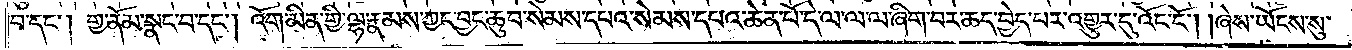བ་དང༌། གྱ་ནོམ་སྣང་བ་དང༌། འོག་མིན་གྱི་ལྷ་རྣམས་ཀྱང་བྱང་ཆུབ་སེམས་དཔའ་སེམས་དཔའ་ཆེན་པོ་དེ་ལ་ལ་ལ་ཞིག་བར་ཆད་བྱེད་པར་འགྱུར་དུ་འོང་ངོ༌། །ཞེས་ཡོངས་སུ་
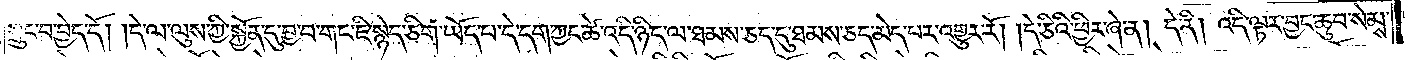སྲུང་བ་བྱེད་དོ། །དེ་ལ་ལུས་ཀྱི་སྐྱོན་དུ་བྱ་བ་གང་ཇི་སྙེད་ཅིག་ཡོད་པ་དེ་དག་ཀྱང་ཚེ་འདི་ཉིད་ལ་ཐམས་ཅད་དུ་ཐམས་ཅད་མེད་པར་འགྱུར་རོ། །དེ་ཅིའི་ཕྱིར་ཞེ་ན། དེ་ནི། འདི་ལྟར་བྱང་ཆུབ་སེམས་
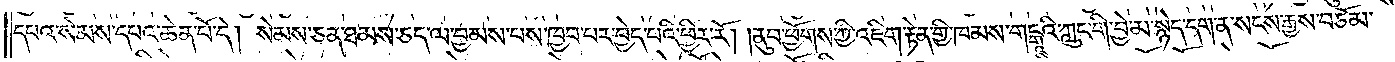དཔའ་སེམས་དཔའ་ཆེན་པོ་དེ། སེམས་ཅན་ཐམས་ཅད་ལ་བྱམས་པས་ཁྱབ་པར་བྱེད་པའི་ཕྱིར་རོ། །ནུབ་ཕྱོགས་ཀྱི་འཇིག་རྟེན་གྱི་ཁམས་གངྒཱའི་ཀླུང་གི་བྱེ་མ་སྙེད་དག་ན་སངས་རྒྱས་བཅོམ་
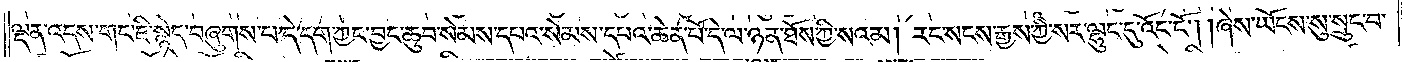ལྡན་འདས་གང་ཇི་སྙེད་བཞུགས་པ་དེ་དག་ཀྱང་བྱང་ཆུབ་སེམས་དཔའ་སེམས་དཔའ་ཆེན་པོ་དེ་ལ་ཉན་ཐོས་ཀྱི་སའམ། རང་སངས་རྒྱས་ཀྱི་སར་ལྷུང་དུ་འོང་ངོ༌། །ཞེས་ཡོངས་སུ་སྲུང་བ་
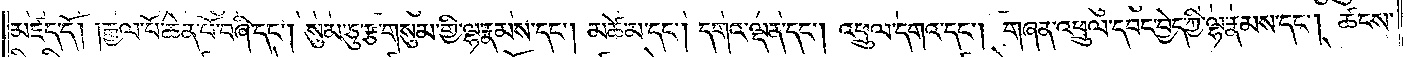མཛད་དོ། །རྒྱལ་པོ་ཆེན་པོ་བཞི་དང༌། སུམ་ཅུ་རྩ་གསུམ་གྱི་ལྷ་རྣམས་དང༌། མཚེ་མ་དང༌། དགའ་ལྡན་དང༌། འཕྲུལ་དགའ་དང༌། གཞན་འཕྲུལ་དབང་བྱེད་ཀྱི་ལྷ་རྣམས་དང༌། ཚངས་
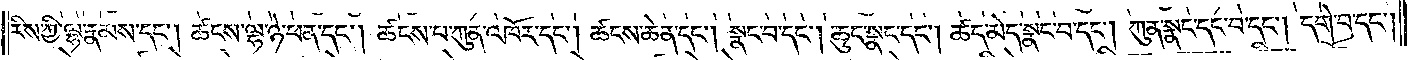རིས་ཀྱི་ལྷ་རྣམས་དང༌། ཚངས་ལྷ་ཉེ་ཕན་དང༌། ཚངས་པ་ཀུན་འཁོར་དང༌། ཚངས་ཆེན་དང༌། སྣང་བ་དང༌། ཆུང་སྣང་དང༌། ཚད་མེད་སྣང་བ་དང༌། ཀུན་སྣང་དང་བ་དང༌། དགེ་བ་དང༌།
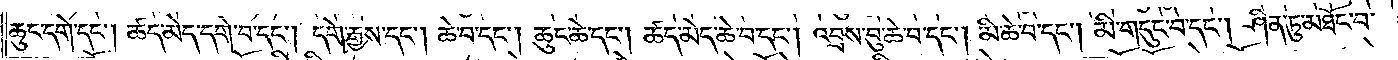ཆུང་དགེ་དང༌། ཚད་མེད་དགེ་བ་དང༌། དགེ་རྒྱས་དང༌། ཆེ་བ་དང༌། ཆུང་ཆེ་དང༌། ཚད་མེད་ཆེ་བ་དང༌། འབྲས་བུ་ཆེ་བ་དང༌། མི་ཆེ་བ་དང༌། མི་གདུང་བ་དང༌། ཤིན་ཏུ་མཐོང་བ་
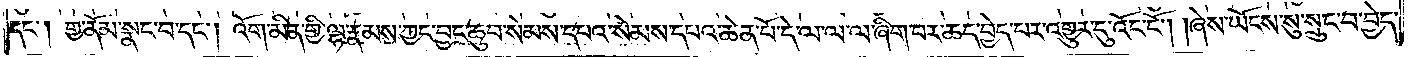དང༌། གྱ་ནོམ་སྣང་བ་དང༌། འོག་མིན་གྱི་ལྷ་རྣམས་ཀྱང་བྱང་ཆུབ་སེམས་དཔའ་སེམས་དཔའ་ཆེན་པོ་དེ་ལ་ལ་ལ་ཞིག་བར་ཆད་བྱེད་པར་འགྱུར་དུ་འོང་ངོ༌། །ཞེས་ཡོངས་སུ་སྲུང་བ་བྱེད་
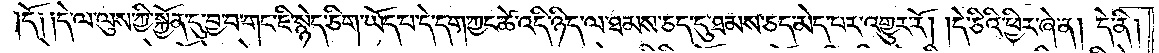དོ༑ ༑དེ་ལ་ལུས་ཀྱི་སྐྱོན་དུ་བྱ་བ་གང་ཇི་སྙེད་ཅིག་ཡོད་པ་དེ་དག་ཀྱང་ཚེ་འདི་ཉིད་ལ་ཐམས་ཅད་དུ་ཐམས་ཅད་མེད་པར་འགྱུར་རོ། །དེ་ཅིའི་ཕྱིར་ཞེ་ན། དེ་ནི།
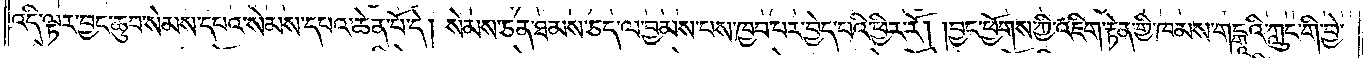འདི་ལྟར་བྱང་ཆུབ་སེམས་དཔའ་སེམས་དཔའ་ཆེན་པོ་དེ། སེམས་ཅན་ཐམས་ཅད་ལ་བྱམས་པས་ཁྱབ་པར་བྱེད་པའི་ཕྱིར་རོ། །བྱང་ཕྱོགས་ཀྱི་འཇིག་རྟེན་གྱི་ཁམས་གངྒཱའི་ཀླུང་གི་བྱེ་
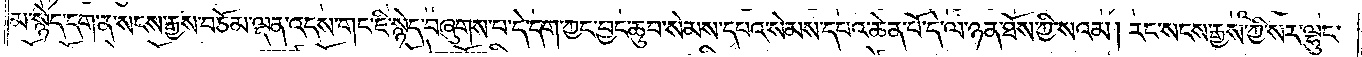མ་སྙེད་དག་ན་སངས་རྒྱས་བཅོམ་ལྡན་འདས་གང་ཇི་སྙེད་བཞུགས་པ་དེ་དག་ཀྱང་བྱང་ཆུབ་སེམས་དཔའ་སེམས་དཔའ་ཆེན་པོ་དེ་ལ་ཉན་ཐོས་ཀྱི་སའམ། རང་སངས་རྒྱས་ཀྱི་སར་ལྷུང་
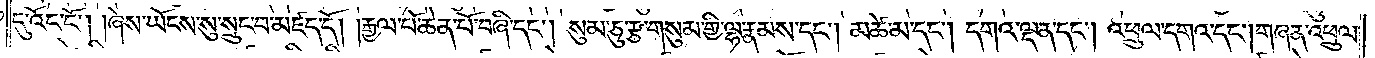དུ་འོང་ངོ༌། །ཞེས་ཡོངས་སུ་སྲུང་བ་མཛད་དོ། །རྒྱལ་པོ་ཆེན་པོ་བཞི་དང༌། སུམ་ཅུ་རྩ་གསུམ་གྱི་ལྷ་རྣམས་དང༌། མཚེ་མ་དང༌། དགའ་ལྡན་དང༌། འཕྲུལ་དགའ་དང༌། གཞན་འཕྲུལ་
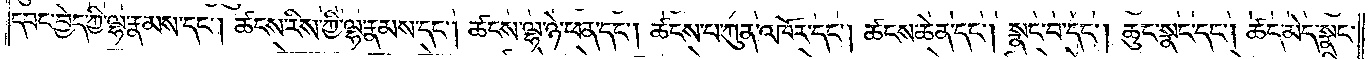དབང་བྱེད་ཀྱི་ལྷ་རྣམས་དང༌། ཚངས་རིས་ཀྱི་ལྷ་རྣམས་དང༌། ཚངས་ལྷ་ཉེ་ཕན་དང༌། ཚངས་པ་ཀུན་འཁོར་དང༌། ཚངས་ཆེན་དང༌། སྣང་བ་དང༌། ཆུང་སྣང་དང༌། ཚད་མེད་སྣང་
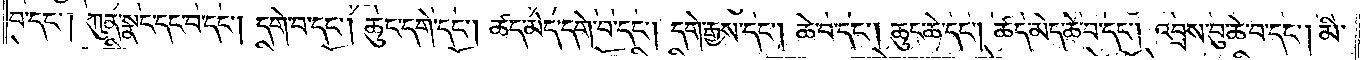བ་དང༌། ཀུན་སྣང་དང་བ་དང༌། དགེ་བ་དང༌། ཆུང་དགེ་དང༌། ཚད་མེད་དགེ་བ་དང༌། དགེ་རྒྱས་དང༌། ཆེ་བ་དང༌། ཆུང་ཆེ་དང༌། ཚད་མེད་ཆེ་བ་དང༌། འབྲས་བུ་ཆེ་བ་དང༌། མི་
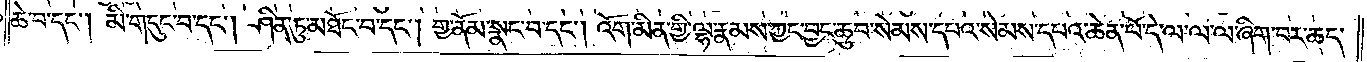ཆེ་བ་དང༌། མི་གདུང་བ་དང༌། ཤིན་ཏུ་མཐོང་བ་དང༌། གྱ་ནོམ་སྣང་བ་དང༌། འོག་མིན་གྱི་ལྷ་རྣམས་ཀྱང་བྱང་ཆུབ་སེམས་དཔའ་སེམས་དཔའ་ཆེན་པོ་དེ་ལ་ལ་ལ་ཞིག་བར་ཆད་
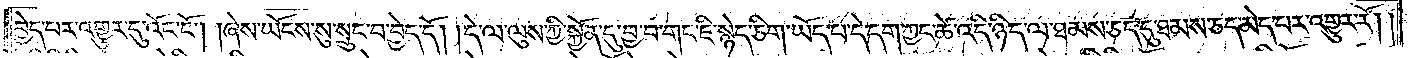བྱེད་པར་འགྱུར་དུ་འོང་ངོ༌། །ཞེས་ཡོངས་སུ་སྲུང་བ་བྱེད་དོ། །དེ་ལ་ལུས་ཀྱི་སྐྱོན་དུ་བྱ་བ་གང་ཇི་སྙེད་ཅིག་ཡོད་པ་དེ་དག་ཀྱང་ཚེ་འདི་ཉིད་ལ་ཐམས་ཅད་དུ་ཐམས་ཅད་མེད་པར་འགྱུར་རོ། །
